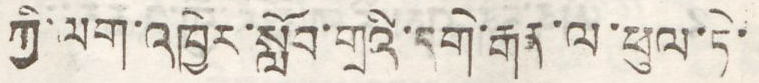ཀྱི་ལག་འཁྱེར་སློབ་གྲའི་དགེ་རྒན་ལ་ཕུལ་ཏེ་
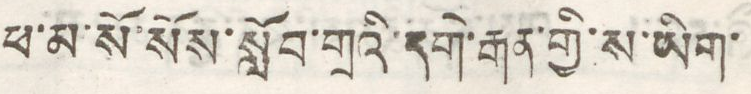ཕ་མ་སོ་སོས་སློབ་གྲའི་དགེ་རྒན་གྱི་ས་ཡིག་
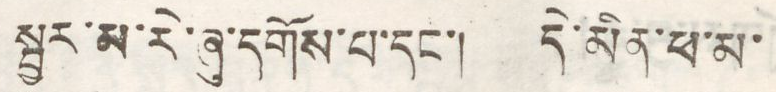སྦྱར་མ་རེ་ཞུ་དགོས་པ་དང་། དེ་མིན་ཕ་མ་
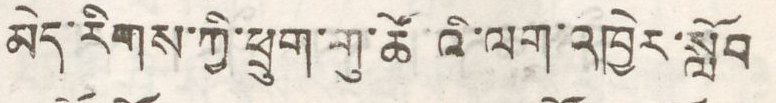མེད་རིགས་ཀྱི་ཕྲུག་གུ་ཚོའི་ལག་འཁྱེར་སློབ
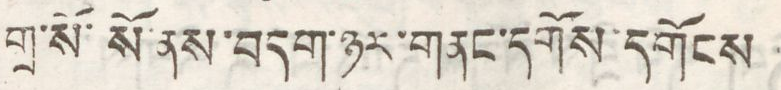གྲ་སོ་སོ་ནས་བདག་ཉར་གནང་དགོས་དགོངས
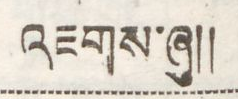འཇགས་ཞུ།།
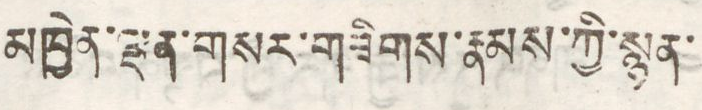མཁྱེན་ལྡན་གསར་གཟིགས་རྣམས་ཀྱ་སྙན་
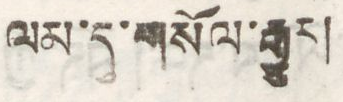ལམ་དུ་གསོལ་རྒྱུར།
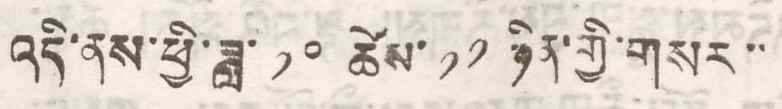འདི་ནས་ཕྱི་ཟླ་ ༡༠ ཚེས་ ༡༡ ཉིན་གྱི་གསར་་
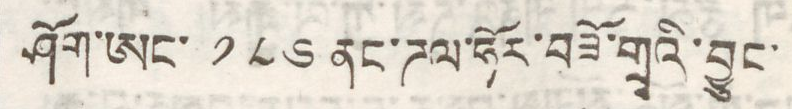ཤོག་ཨང་ ༡༨༦ ནང་ཌལ་ཧོར་བཟི་གྲྭའི་བྱུང་
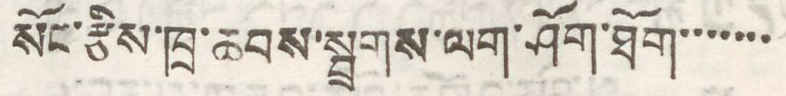སོང་རྩིས་ཁྲ་ཆབས་སྦྲགས་ལག་ཤོག་ཐོག་་་་་་་
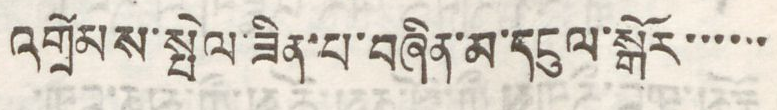འགྲེམས་སྤེལ་ཟིན་པ་བཞིན་མ་དངུལ་སྒོར་་་་་་
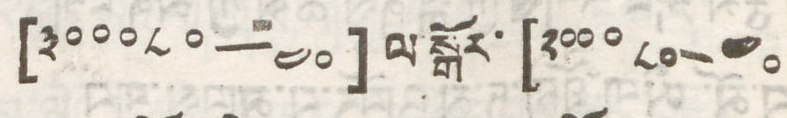[༣༠༠༠༨༠—༤༠] ལ་སྒོར་ [༢༠༠༠༠༨༠—༤༠
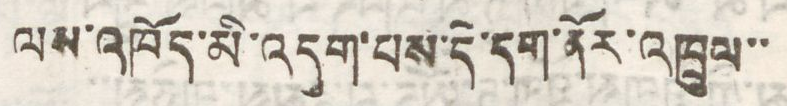ལས་འཁོད་མི་འདུག་པས་དེ་དག་ནོར་འཁྲུལ་་
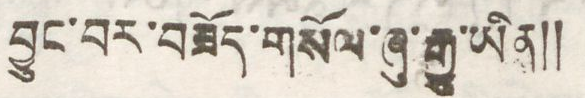བྱུང་བར་བཟོད་གསོལ་ཞུ་རྒྱུ་ཡིན།།
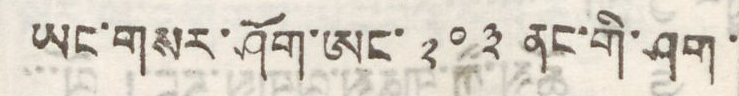ཡང་གསར་ཤོག་ཨང་ ༢༠༣ ནང་གི་ཤག
